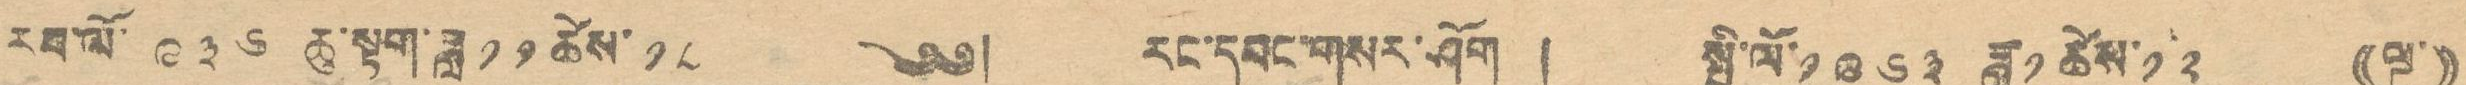རབ་ལོ་ ༩༣༦ ཆུ་སྟག་ཟླ ༡༡ ཚེས་ ༡༨ ༄༅། རང་དབང་གསར་ཤོག ། སྤྱི་ལོ་ ༡༩༦༣ ཟླ་ ༡ ཚེས་ ༡༢ ((ལྔ་))
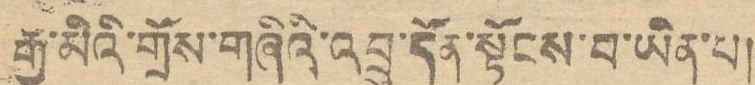རྒྱ་མིའི་གྲོས་གཞིའི་འབྲུ་དོན་སྟོངས་པ་ཡིན་པ།
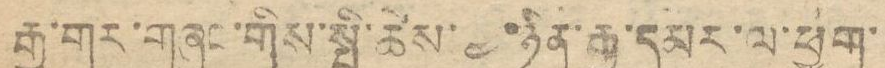རྒྱ་གར་གཞུང་གིས་སྤྱི་ཚེས་ ༤ ཉིན་རྒྱ་དམར་ལ་ཕྱག་
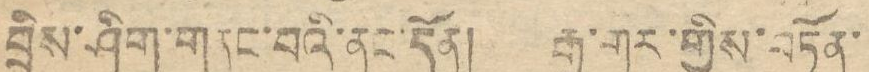བྲིས་ཤིག་གནང་བའི་ནང་དོན། རྒྱ་གར་གྱིས་བཏོན་
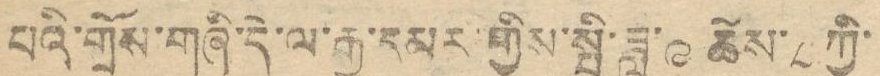པའི་གྲོས་གཞི་དེ་ལ་རྒྱ་དམར་གྱིས་སྤྱི་ཟླ་༩ ཚེས་༨ ཀྱི་
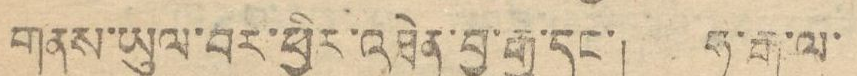གནས་ཡུལ་བར་ཕྱིར་འཐེན་བྱ་རྒྱུ་དང་། ཧ་རྒུ་ལ་
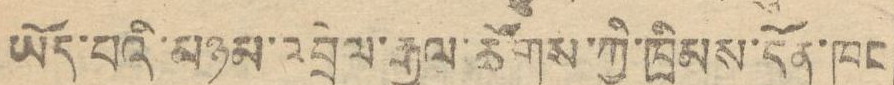ཡོད་པའི་མཉམ་འབྲེལ་རྒྱལ་ཚོགས་ཀྱི་ཁྲིམས་དོན་ཁང
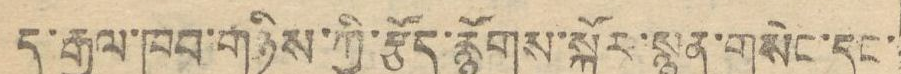དུ་རྒྱལ་ཁབ་གཉིས་ཀྱི་རྩོད་རྙོགས་སྐོར་སྙན་གསེང་དང་
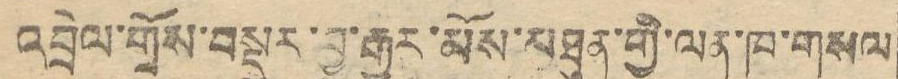འབྲེལ་གྲོས་བསྡུར་བྱ་རྒྱུར་མོས་མཐུན་གྱི་ལན་ཁ་གསལ
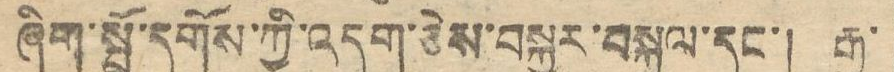ཞིག་སྤྲོ་དགོས་ཀྱི་འདུག་ཅེས་བསྐྱར་བསྐུལ་དང་། རྒྱ་
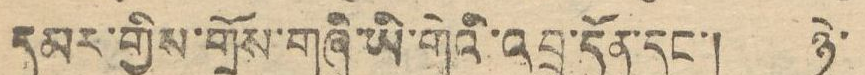དམར་གྱིས་གྲོས་གཞི་ཡི་གེའི་འབྲུ་དོན་དང་། ཉེ་
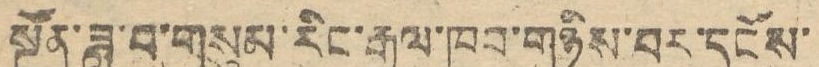སྔོན་ཟླ་བ་གསུམ་རིང་རྒྱལ་ཁབ་གཉིས་བར་དངོས་
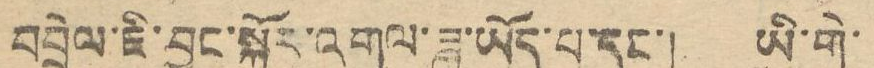བབྲེལ་ཇི་བྱུང་སྐོར་འགལ་ཟླ་ཡོད་པ་དང་། ཡི་གེ་
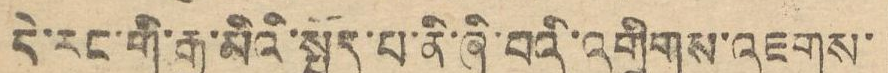དེ་རང་གི་རྒྱ་མིའི་སྤྱོད་པ་ནི་ཞི་བའི་འགྲིགས་འཇགས་
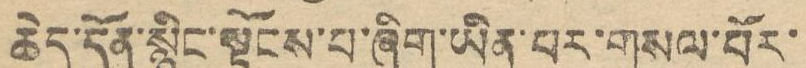ཆེད་དོན་སྙིང་སྟོངས་པ་ཞིག་ཡིན་པར་གསལ་པོར་
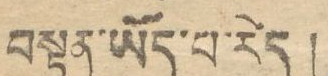བསྟན་ཡོད་པ་རེད།
